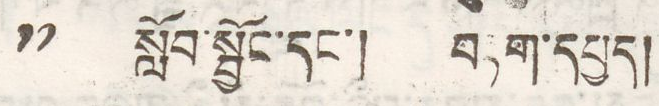༡༡ སློབ་སྦྱོང་དང་། བརྟག་དཔྱད།
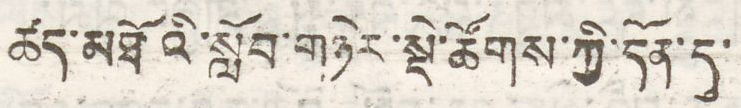ཚད་མཐོའི་སློབ་གཉེན་སྡེ་ཚོགས་ཀྱི་དོན་དུ་
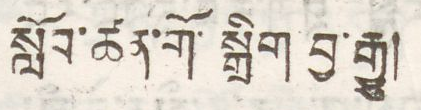སློབ་ཚན་གོ་སྒྲིག བྱ་རྒྱུ།
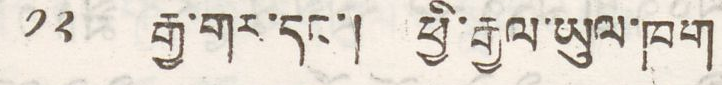༡༢ རྒྱ་གར་དང་། ཕྱི་རྒྱལ་ཡུལ་ཁག
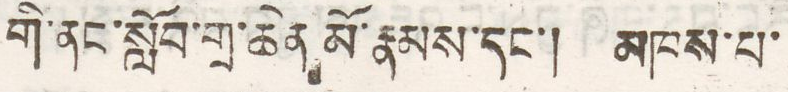གི་ནང་སློབ་གྲ་ཆེན་མོ་རྣམས་དང་། མཁས་པ་
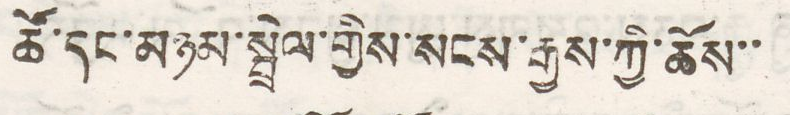ཚོ་དང་མཉམ་སྤྲེལ་གྱིས་སངས་རྒྱས་ཀྱི་ཆོས་་
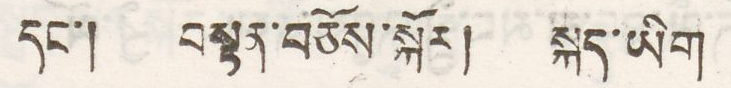དང་། བསྟན་བཅོས་སྐོར། སྐད་ཡིག
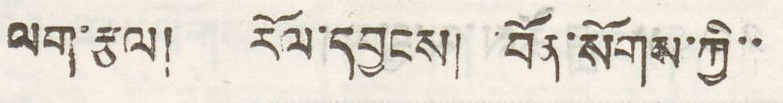ལག་རྩལ། རོལ་དབྱངས། བོན་སོགས་ཀྱི་་
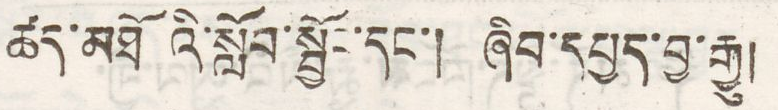ཚད་མཐོའི་སློབ་སྦྱོང་དང་། ཞིབ་དཔྱད་བྱ་རྒྱུ།
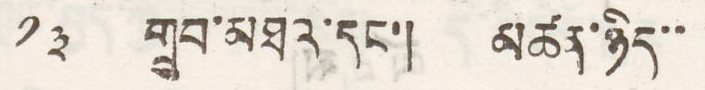༡༣ གྲུབ་མཐའ་དང་། མཚན་ཉིད་་
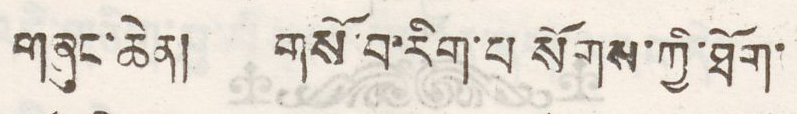གཞུང་ཆེན། གསོ་བ་རིག་པ སོགས་ཀྱི་ཐོག་
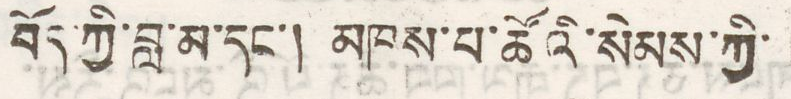བོད་ཀྱི་བླ་མ་དང་། མཁས་པ་ཚོའི་སེམས་ཀྱི་
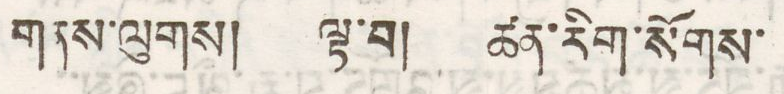གནས་ལུགས། ལྟ་བ། ཚན་རིག་སོགས་
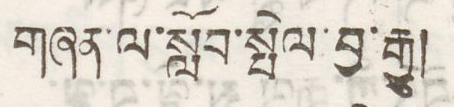གཞན་ལ་སློབ་སྤེལ་བྱ་རྒྱུ།
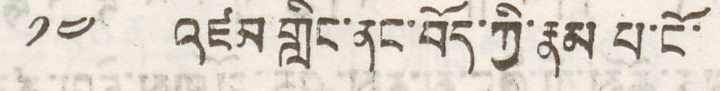༡༤ འཛམ་གླིང་ནང་བོད་ཀྱི་རྣམ པ་ངོ་
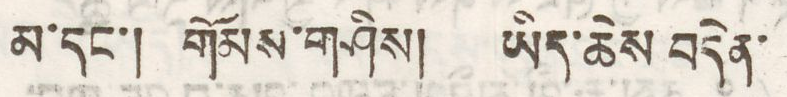མ་དང་། གོམས་གཤིས། ཡིད་ཆེས་བདེན་
